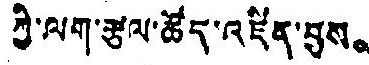ཀྱི་ལག་རྩལ་ཚོད་འཛིན་བྱས。
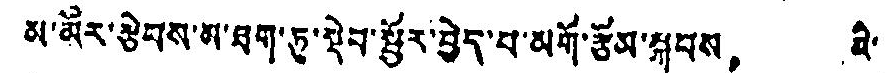མ་མོར་རྩེབས་མ་ཐག་ཏུ་སྡེབ་སྦྱོར་བྱེད་པ་མགོ་རྩོམ་སྐབས， མི་
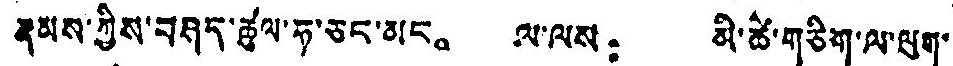རྣམས་ཀྱིས་བཤད་ཚུལ་ཧ་ཅང་མང。 ལ་ལས： མི་ཚེ་གཅིག་ལ་ལུག་
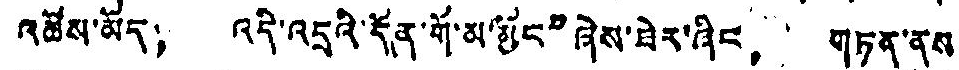འཚོས་མོད， འདི་འདྲའི་དོན་གོ་མ་མྱོང”ཞེས་ཟེར་ཞིང， གཏན་ནས་
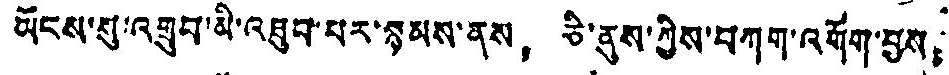ཡོངས་སུ་འགྲུབ་མི་འཐུབ་པར་སྙམས་ནས， ཅི་ནུས་ཀྱིས་བཀག་འགོག་བྱས，
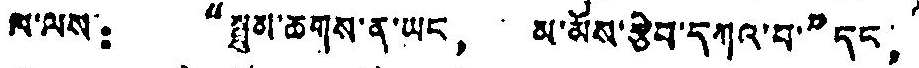ལ་ལས： “སྤྲུམ་ཆགས་ན་ཡང， མ་མོས་རྩེབ་དཀའ་བ་”དང，
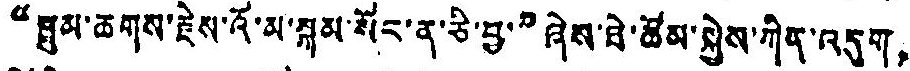“སྦུམ་ཆགས་རྗེས་འོ་མ་སྐམ་སོང་ན་ཅི་བྱ་”ཞེས་ཟེ་ཚོམ་སྐྱེས་ཀིན་འདུག，
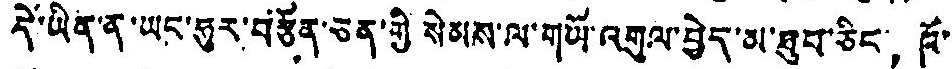དེ་ཡིན་ན་ཡང་ཧུར་བརྩོན་ཅན་གྱི སེམས་ལ་གཡོ་འགུལ་བྱེད་མ་ཐུབ་ཅིང， ཁོ་་་
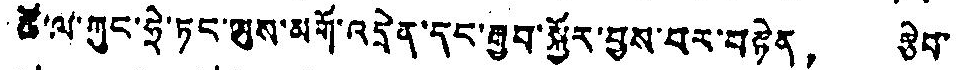ཚོ་ལ་ཀུང་ཧྲེ་ཏང་ཡུས་མགོ་འདྲེན་དང་རྒྱབ་སྐྱོར་བྱས་པར་བརྟེན， རྩིབ་
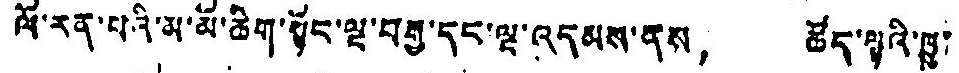ལོ་རན་པའི་མ་མོ་ཆིག་སྟོང་ལྔ་བརྒྱ་དང་ལྔ་འདམས་ནས， ཚོད་ལྟའི་ཁྱུ་
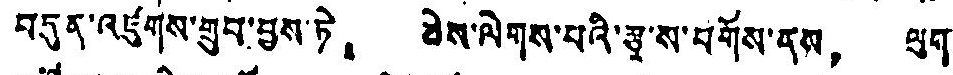བདུན་འཛུགས་གྲུབ་བྱས་ཏེ， ཅེས་ལེགས་པའི་རྩྭ་ས་བགོས་ནས， ལུག་
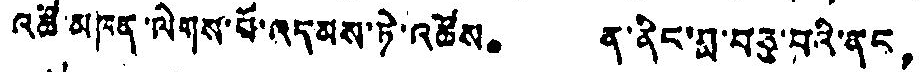འཚོ་མཁན་ལེགས་པོ་འདམས་ཏེ་འཚོས。 ན་ནིང་བླ་བཅུ་བའི་ནང，
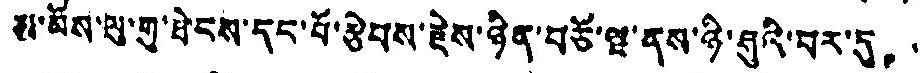ས་མོས་ལུ་གུ་ཐེངས་དང་པོ་རྩེབས་རྗེས་ཉིན་བཅོ་ལྔ་ནས་ཉི་ཤུའི་བར་དུ，
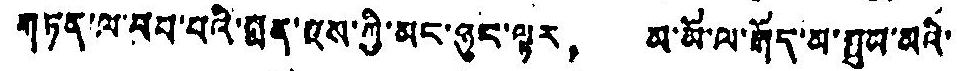གཏན་ལ་བབ་པའི་སྨན་ལས་ཀྱི་མང་ཉུང་ལྟར， མ་མོ་ལ་རྒོད་མ་ཐུམ་མའི་
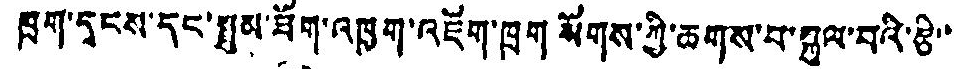ཁྲག་དྭངས་དང་སྤྲུམ་ཟོག་འཁྱུག་འཇོག་ཁྲག སོགས་ཀྱི་ཆགས་པ་སྐྱུལ་བའི་རྩི་་་
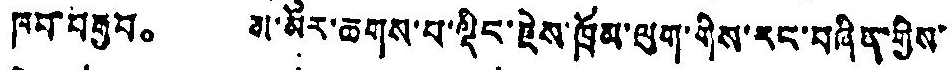ཁབ་བརྒྱབ。 ས་མོར་ཆགས་པ་ལྡིང་རྗེས་ཁྲོམ་ལུག་གིས་རང་བཞིན་གྱིས་
